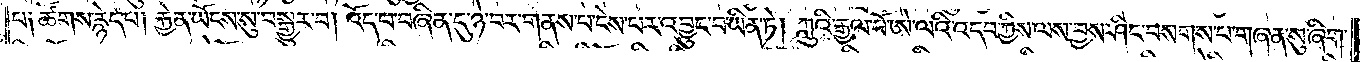པ༑ ཚོགས་རྙེད་པ། རྐྱེན་ཡོངས་སུ་བསྒྱུར་བ། འོད་པ་བཞིན་དུ་ཉེ་བར་གནས་པ་ངེས་པར་འབྱུང་བ་ཡིན་ཏེ། ཀླུའི་རྒྱལ་པོ་ཨེ་ལའི་འདབ་ཀྱིས་ལས་བྱས་ཤིང་བསགས་པ་གཞན་སུ་ཞིག་
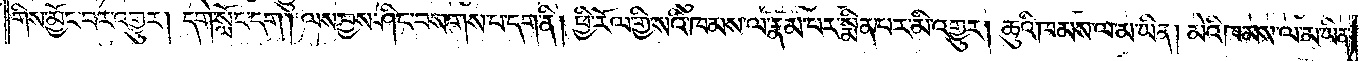གིས་མྱོང་བར་འགྱུར། དགེ་སློང་དག། ལས་བྱས་ཤིང་བསགས་པ་དག་ནི། ཕྱི་རོལ་གྱི་སའི་ཁམས་ལ་རྣམ་པར་སྨིན་པར་མི་འགྱུར། ཆུའི་ཁམས་ལ་མ་ཡིན། མེའི་ཁམས་ལ་མ་ཡིན་
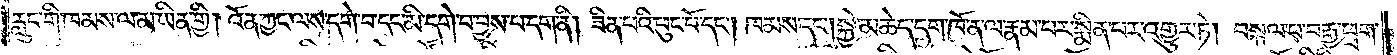རླུང་གི་ཁམས་ལ་མ་ཡིན་གྱི། འོན་ཀྱང་ལས་དགེ་བ་དང་མི་དགེ་བ་བྱས་པ་དག་ནི། ཟིན་པའི་ཕུང་པོ་དང༌། ཁམས་དང༌། སྐྱེ་མཆེད་དག་ཁོ་ན་ལ་རྣམ་པར་སྨིན་པར་འགྱུར་ཏེ། བསྐལ་པ་བརྒྱ་ཕྲག་
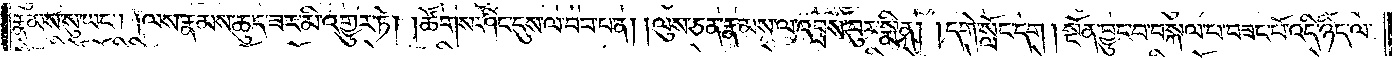རྣམས་སུ་ཡང༌། །ལས་རྣམས་ཆུད་ཟར་མི་འགྱུར་ཏེ། །ཚོགས་ཤིང་དུས་ལ་བབ་པ་ན། །ལུས་ཅན་རྣམས་ལ་འབྲས་བུར་སྨིན། །དགེ་སློང་དག །སྔོན་བྱུང་བ་བསྐལ་པ་བཟང་པོ་འདི་ཉིད་ལ་
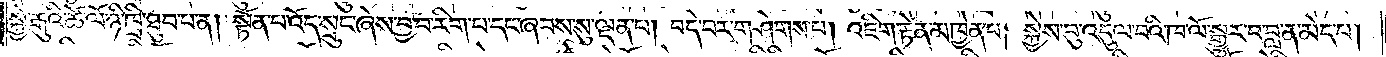སྐྱེ་རྒུའི་ཚེ་ལོ་ཉི་ཁྲི་ཐུབ་པ་ན། སྟོན་པ་འོད་སྲུང་ཞེས་བྱ་བ་རིག་པ་དང་ཞབས་སུ་ལྡན་པ། བདེ་བར་གཤེགས་པ། འཇིག་རྟེན་མཁྱེན་པ། སྐྱེས་བུ་འདུལ་བའི་ཁ་ལོ་སྒྱུར་བ་བླ་ན་མེད་པ།
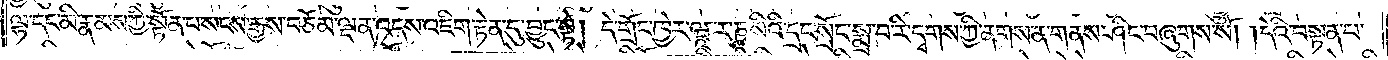ལྷ་དང་མི་རྣམས་ཀྱི་སྟོན་པ་སངས་རྒྱས་བཅོམ་ལྡན་འདས་འཇིག་རྟེན་དུ་བྱུང་སྟེ། དེ་གྲོང་ཁྱེར་ཝཱ་ར་ཎཱ་སིའི་དྲང་སྲོང་སྨྲ་བ་རི་དྭགས་ཀྱི་ནགས་ན་གནས་ཤིང་བཞུགས་སོ། །དེའི་བསྟན་པ་
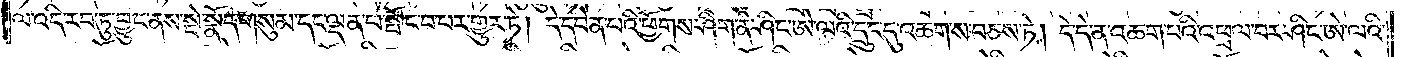ལ་འདི་རབ་ཏུ་བྱུང་ནས་སྡེ་སྣོད་གསུམ་དང་ལྡན་པ་སྤོང་བ་པར་གྱུར་ཏེ། དེ་དབེན་པའི་ཕྱོགས་ཤིག་ནི་ཤིང་ཨེ་ལའི་དྲུང་དུ་འཆགས་བཅས་ཏེ། དེ་དེ་ན་འཆག་པའི་འཕྲལ་པར་ཤིང་ཨེ་ལའི་
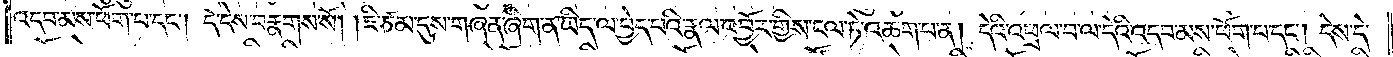འདབ་མས་ཕོག་པ་དང༌། དེ་དེས་བརྣགས་སོ། །ཇི་ཙམ་དུས་གཞན་ཞིག་ན་ཡིད་ལ་བྱེད་པའི་རྣལ་འབྱོར་གྱིས་ངལ་ཏེ་འཆག་པ་ན། དེའི་འཕྲལ་བ་ལ་དེའི་འདབ་མས་ཕོག་པ་དང༌། དེས་དེ་
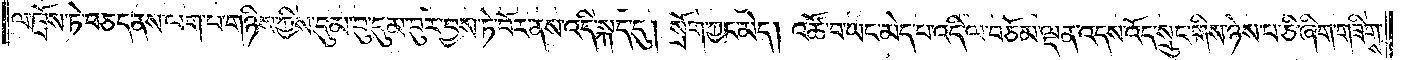ལ་ཁྲོས་ཏེ་བཅད་ནས་ལག་པ་གཉིས་ཀྱིས་དུམ་བུ་དུམ་བུར་བྱས་ཏེ་བོར་ནས་འདི་སྐད་དུ། སྲོག་ཀྱང་མེད། འཚོ་བ་ཡང་མེད་པ་འདི་ལ་བཅོམ་ལྡན་འདས་འོད་སྲུང་གིས་ཉེས་པ་ཅི་ཞིག་གཟིགས་
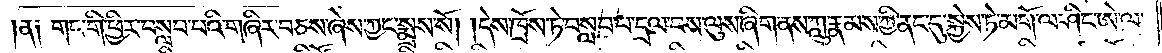།ན༑ གང་གི་ཕྱིར་བསླབ་པའི་གཞིར་བཅས་ཞེས་ཀྱང་སྨྲས་སོ། །དེས་ཁྲོས་ཏེ་བསླབ་པ་དྲལ་བས་ལུས་ཞིག་ནས་ཀླུ་རྣམས་ཀྱི་ནང་དུ་སྐྱེས་ཏེ་མགོ་ལ་ཤིང་ཨེ་ལ་
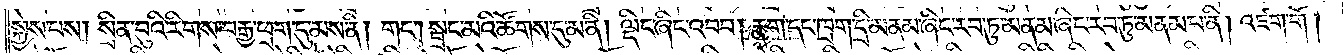སྐྱེས་པས། སྲིན་བུའི་རིགས་བརྒྱ་ཕྲག་དུ་མས་ནི། གང༌། སྦྲང་མའི་ཚོགས་དུ་མ་ནི། ལྡིང་ཞིང་འབབ། རྣག་དང་ཁྲག་དྲི་མནམ་ཞིང་རབ་ཏུ་མནམ་ཞིང་རབ་ཏུ་མནམ་པ་ནི། འཛག་གོ །
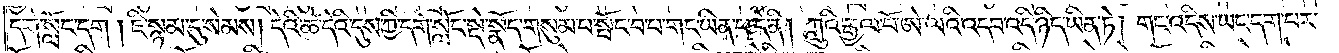དགེ་སློང་དག །ཇི་སྙམ་དུ་སེམས། དེའི་ཚེ་དེའི་དུས་ཀྱི་དགེ་སློང་སྡེ་སྣོད་གསུམ་པ་སྤོང་བ་པ་གང་ཡིན་པ་དེ་ནི། ཀླུའི་རྒྱལ་པོ་ཨེ་ལའི་འདབ་འདི་ཉིད་ཡིན་ཏེ། གང་འདིས་ཡང་དག་པར་
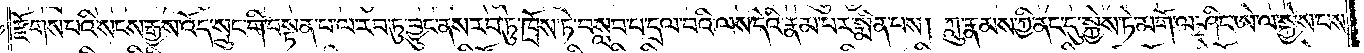རྫོགས་པའི་སངས་རྒྱས་འོད་སྲུང་གི་བསྟན་པ་ལ་རབ་ཏུ་བྱུང་ནས་རབ་ཏུ་ཁྲོས་ཏེ་བསླབ་པ་དྲལ་བའི་ལས་དེའི་རྣམ་པར་སྨིན་པས། ཀླུ་རྣམས་ཀྱི་ནང་དུ་སྐྱེས་ཏེ་མགོ་ལ་ཤིང་ཨེ་ལ་སྐྱེས་པས་
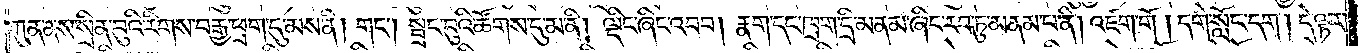ཀུན་ནས་སྲིན་བུའི་རིགས་བརྒྱ་ཕྲག་དུ་མས་ནི། གང༌། སྦྲང་བུའི་ཚོགས་དུ་མ་ནི། ལྡིང་ཞིང་འབབ། རྣག་དང་ཁྲག་དྲི་མནམ་ཞིང་རབ་ཏུ་མནམ་པ་ནི། འཛག་གོ །དགེ་སློང་དག །དེ་ལྟར་
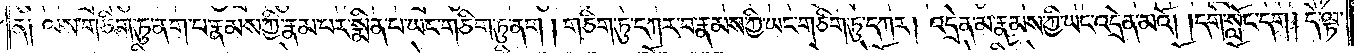ན༑ ལས་གཅིག་ཏུ་ནག་པ་རྣམས་ཀྱི་རྣམ་པར་སྨིན་པ་ཡང་གཅིག་ཏུ་ནག །གཅིག་ཏུ་དཀར་བ་རྣམས་ཀྱི་ཡང་གཅིག་ཏུ་དཀར། འདྲེན་མ་རྣམས་ཀྱི་ཡང་འདྲེན་མའོ། །དགེ་སློང་དག །དེ་ལྟ་
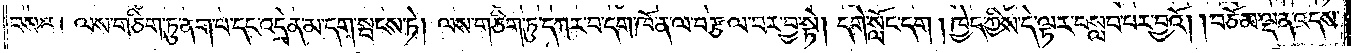བས་ན། ལས་གཅིག་ཏུ་ནག་པ་དང་འདྲེན་མ་དག་སྤངས་ཏེ། ལས་གཅིག་ཏུ་དཀར་བ་དག་ཁོ་ན་ལ་བརྩལ་བར་བྱ་སྟེ། དགེ་སློང་དག། ཁྱེད་ཀྱིས་དེ་ལྟར་བསླབ་པར་བྱའོ། །བཅོམ་ལྡན་འདས་
